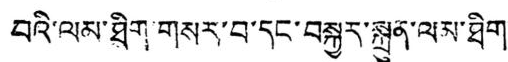བའི་ལམ་ཐིག་གསར་བ་དང་བསྐྱར་སྐྲུན་ལམ་ཐིག་
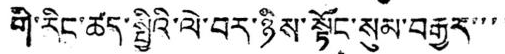གི་རིང་ཚད་སྤྱིའི་ལེ་བར་ཉིས་སྟོང་སུམ་བརྒྱར་་་་
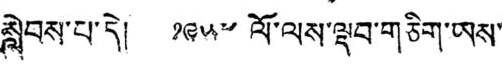སླེབས་པ་དེ། ༡༩༥༧ ལོ་ལས་ལྡབ་གཅིག་ཡས་
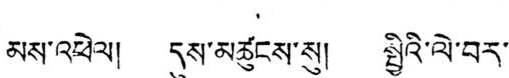མས་འཕེལ། དུས་མཚུངས་སུ། སྤྱིའི་ལེ་བར་
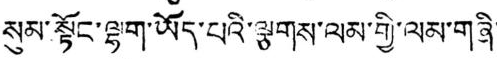སུམ་སྟོང་ལྷག་ཡོད་པའི་ལྕགས་ལམ་གྱི་ལམ་གཞི་
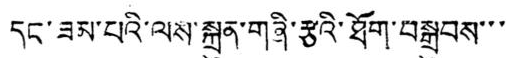དང་ཟམ་པའི་ལས་སྐྲུན་གཞི་རྩའི་ཐོག་བསྒྲུབས་་་
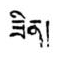ཟིན།
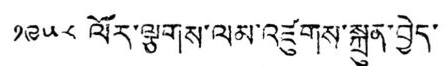༡༩༥༨ ལོར་ལྕགས་ལམ་འཛུགས་སྐྲུན་བྱེད་
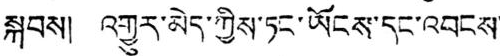སྐབས། འགྱུར་མེད་ཀྱིས་ཏང་ཡོངས་དང་འབངས་
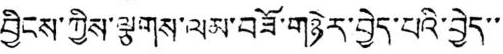བྱིངས་ཀྱིས་ལྕགས་ལམ་བཟོ་གཉེར་བྱེད་པའི་བྱེད་་
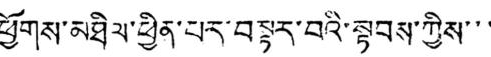ཕྱོགས་མཐིལ་ཕྱིན་པར་བསྟར་བའི་སྟབས་ཀྱིས་་་
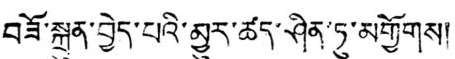བཟོ་སྐྲུན་བྱེད་པའི་མྱུར་ཚད་ཤིན་ཏུ་མགྱོགས།
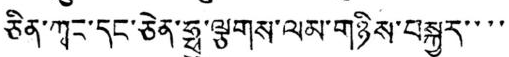ཅིན་ཀྭང་དང་ཅེན་ཧྥུ་ལྕགས་ལམ་གཉིས་བསྐྱར་་་་
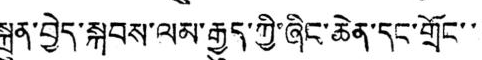སྐྲུན་བྱེད་སྐབས་ལམ་རྒྱུད་ཀྱི་ཞིང་ཆེན་དང་གྲོང་་་
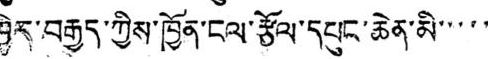ཁྱིར་བརྒྱད་ཀྱིས་ཁྱོན་ངལ་རྩོལ་དཔུང་ཆེན་མི་་་་་
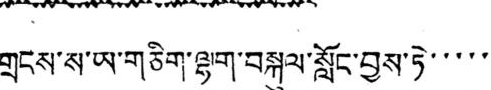གྲངས་ས་ཡ་གཅིག་ལྷག་བསྐུལ་སློང་བྱས་ཏེ་་་་་
